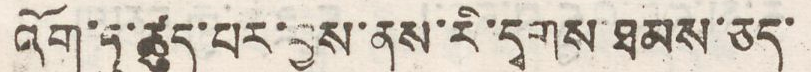འོག་ཏུ་ཚུད་པར་བྱས་ནས་རི་དྭགས་ཐམས་ཅད་
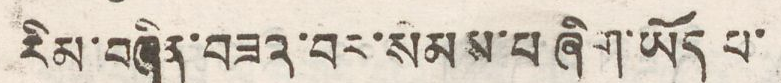རིམ་བཞིན་བཟའ་བར་སེམས་པ ཞིག་ཡོད པ་
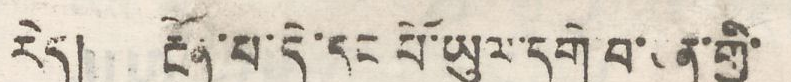རེད། རྔོན་པ་དེ་དང པོ་ཡུལ་དགེ་བ་ཅན་གྱི་
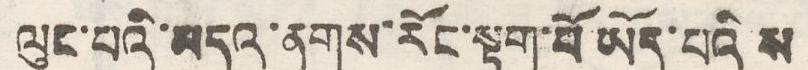ལུང་པའི་མདའ་ནགས་རོང་སྟུག་པོ་ཡོད་པའི ས
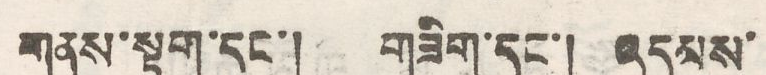གནས་སྟག་དང་། གཟིག་དང་། འདམས་
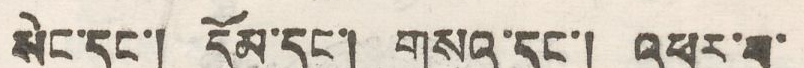སེང་དང་། དོམ་དང་། གསའ་དང་། འཕར་བ་
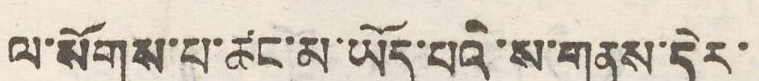ལ་སོགས་པ་ཚང་མ་ཡོད་པའི་ས་གནས་དེར་
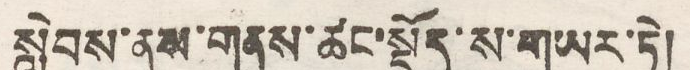སླེབས་ནས་གནས་ཚུལ་སྡོད་ས་གཡར་ཏེ།
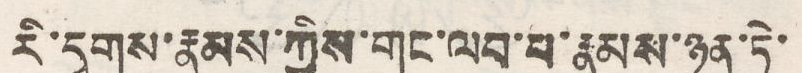རི་དྭགས་རྣམས་ཀྱིས་གང་ལབ་པ་རྣམས་ཉན་ཏེ་
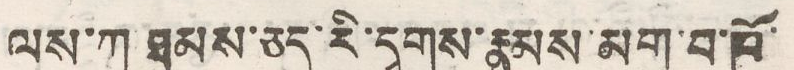ལས་ཀ ཐམས་ཅད་རི་དྭགས་རྣམས་མགུ་བ་ཁོ་
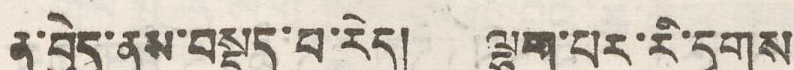ན་བྱེད་ནས་བསྡད་བ་རེད། ལྷག་པར་རི་དྭགས
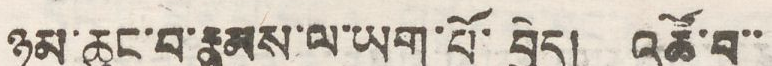ཉམ་ཆུང་བ་རྣམས་ལ་ཡག་པོ་བྱེད། འཚོ་བ་་
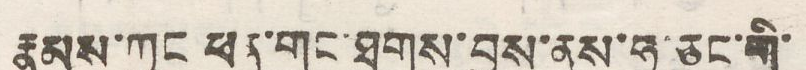རྣམས་ཀྱང ཕན་གང་ཐགས་བྱས་ནས་ཧ་ཅང་གི་
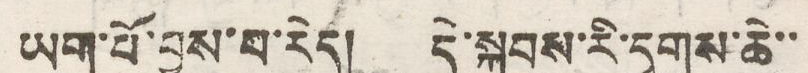ཡག་པོ་བྱས་པ་རེད། དེ་སྐབས་རི་དྭགས་ཆེ་་
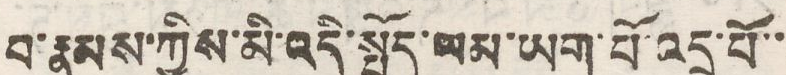བ་རྣམས་ཀྱིས་མི་འདི་སྤྱོད་ལམ་ཡག་པོ་འདྲ་པོ་་
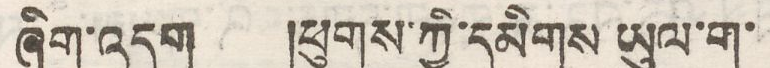ཞིག་འདུག །ཕུགས་ཀྱི་དམིགས ཡུལ་ག་
